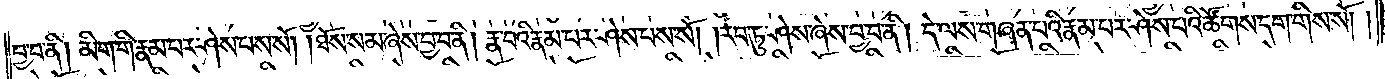བྱ་བ་ནི། མིག་གི་རྣམ་པར་ཤེས་པས་སོ། །ཐོས་སམ་ཞེས་བྱ་བ་ནི། རྣ་བའི་རྣམ་པར་ཤེས་པས་སོ། །རབ་ཏུ་ཤེས་ཞེས་བྱ་བ་ནི། དེ་ལས་གཞན་པའི་རྣམ་པར་ཤེས་པའི་ཚོགས་དག་གིས་སོ། །
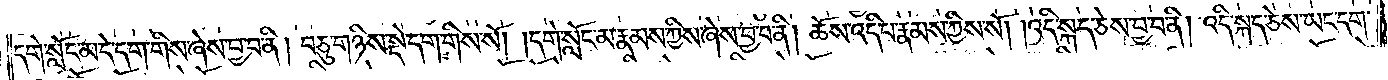དགེ་སློང་མ་དེ་དག་གིས་ཞེས་བྱ་བ་ནི། བཅུ་གཉིས་སྡེ་དག་གིས་སོ། །དགེ་སློང་མ་རྣམས་ཀྱིས་ཞེས་བྱ་བ་ནི། ཆོས་འདི་པ་རྣམས་ཀྱིས་སོ། །འདི་སྐད་ཅེས་བྱ་བ་ནི། འདི་སྐད་ཅེས་ཡང་དག་
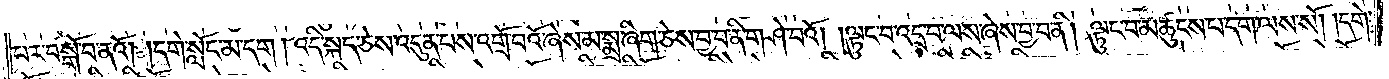པར་བསྒོ་བ་ནའོ། །དགེ་སློང་མ་དག །འདི་སྐད་ཅེས་འདུན་པས་འགྲོ་བའོ་ཞེས་མ་སྨྲ་ཞིག་ཅེས་བྱ་བ་ནི་གཤེ་བའོ། །ལྟུང་བ་འདྲ་བ་ལས་ཞེས་བྱ་བ་ནི། ལྟུང་བ་མཚུངས་པ་དག་ལས་སོ། །དགེ་
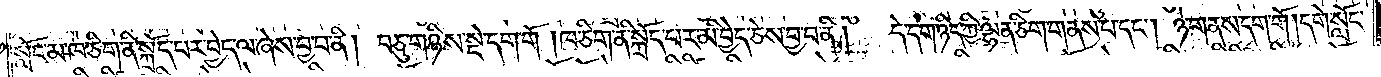སློང་མ་ཁ་ཅིག་ནི་སྐྲོད་པར་བྱེད་ལ་ཞེས་བྱ་བ་ནི། བཅུ་གཉིས་སྡེ་དག་གོ །ཁ་ཅིག་ནི་སྐྲོད་པར་མི་བྱེད་ཅེས་བྱ་བ་ནི། དེ་དག་ཉིད་ཀྱི་ལྷན་ཅིག་གནས་པ་དང༌། ཉེ་གནས་དག་གོ །དགེ་སློང་
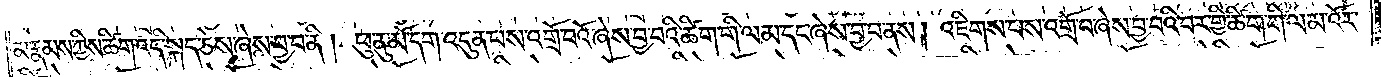མ་རྣམས་ཀྱིས་ཚིག་འདི་སྐད་ཅེས་ཞེས་བྱ་བ་ནི། ཕུ་ནུ་མོ་དགེ་འདུན་པས་འགྲོ་བའོ་ཞེས་བྱ་བའི་ཚིག་གི་ལམ་དང་ཞེས་བྱ་བ་ནས། འཇིགས་པས་འགྲོ་བ་ཞེས་བྱ་བའི་བར་གྱི་ཚིག་གི་ལམ་འོར་
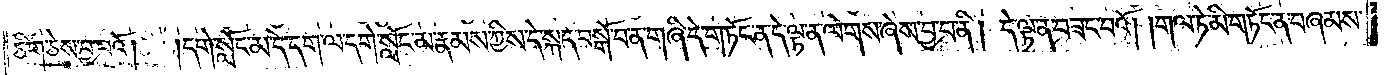ཅིག་ཅེས་བྱ་བའོ། །དགེ་སློང་མ་དེ་དག་ལ་དགེ་སློང་མ་རྣམས་ཀྱིས་དེ་སྐད་བསྒོ་བ་ན་གཞི་དེ་གཏོང་ན་དེ་ལྟ་ན་ལེགས་ཞེས་བྱ་བ་ནི། དེ་ལྟ་ན་བཟང་བའོ། །གལ་ཏེ་མི་གཏོང་ན་བཞམས་
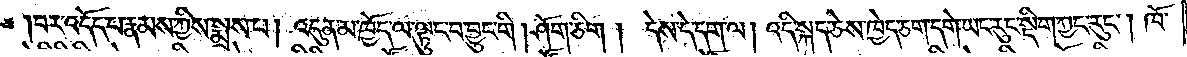།བར་འདོད་པ་རྣམས་ཀྱིས་སྨྲས་པ། འདུན་མ་ཁྱོད་ལ་ལྟུང་བ་བྱུང་གི །ཤོག་ཅིག །དེས་དེ་དག་ལ། འདི་སྐད་ཅེས་ཁྱེད་ཅག་དགེ་ཡང་རུང་སྡིག་ཀྱང་རུང༌། ཁོ་
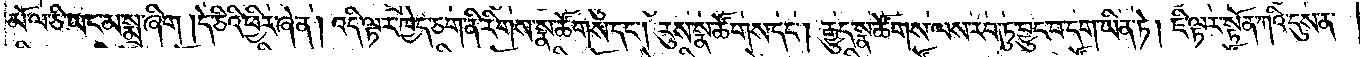མོ་ལ་ཅི་ཡང་མ་སྨྲ་ཞིག །དེ་ཅིའི་ཕྱིར་ཞེ་ན། འདི་ལྟར་ཁྱེད་ཅག་ནི་རིགས་སྣ་ཚོགས་དང༌། རུས་སྣ་ཚོགས་དང༌། རྒྱུད་སྣ་ཚོགས་ལས་རབ་ཏུ་བྱུང་བ་དག་ཡིན་ཏེ། ཇི་ལྟར་སྟོན་ཀའི་དུས་ན་
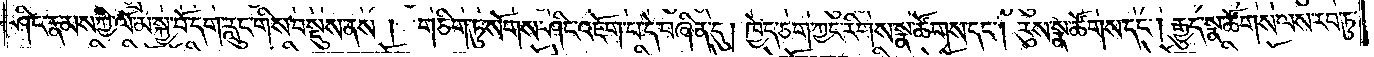ཤིང་རྣམས་ཀྱི་ལོ་མ་སྐྱ་བོ་དག་རླུང་གིས་བསྡུས་ནས ། གཅིག་ཏུ་སོགས་ཤིང་འཇོག་པ་དེ་བཞིན་དུ། ཁྱེད་ཅག་ཀྱང་རིགས་སྣ་ཚོགས་དང༌། རུས་སྣ་ཚོགས་དང༌། རྒྱུད་སྣ་ཚོགས་ལས་རབ་ཏུ་
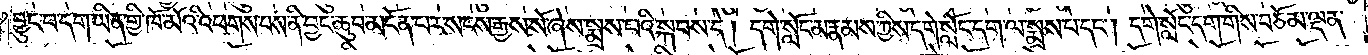བྱུང་བ་དག་ཡིན་གྱི་ཁོ་མོའི་འཕགས་པས་ནི་བྱང་ཆུབ་མངོན་པར་སངས་རྒྱས་སོ་ཞེས་སྨྲས་པའི་སྐབས་དེ། དགེ་སློང་མ་རྣམས་ཀྱིས་དགེ་སློང་དག་ལ་སྨྲས་པ་དང༌། དགེ་སློང་དག་གིས་བཅོམ་ལྡན་
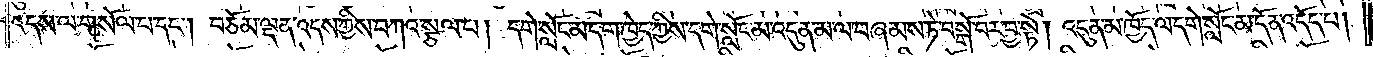འདས་ལ་གསོལ་པ་དང༌། བཅོམ་ལྡན་འདས་ཀྱིས་བཀའ་སྩལ་པ། དགེ་སློང་མ་དག་ཁྱེད་ཀྱིས་དགེ་སློང་མ་འདུན་མ་ལ་བཞམས་ཏེ་བསྒོ་བར་བྱ་སྟེ། འདུན་མ་ཁྱོད་ལ་དགེ་སློང་མ་དོན་འདོད་པ།
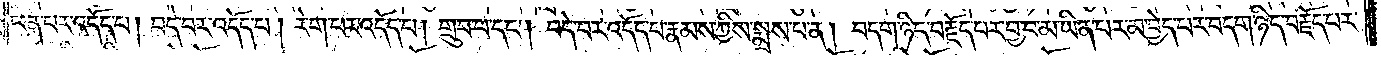ཕན་པར་འདོད་པ། བདེ་བར་འདོད་པ། རེག་པར་འདོད་པ། གྲུབ་པ་དང༌། བདེ་བར་འདོད་པ་རྣམས་ཀྱིས་སྨྲས་པ་ན། བདག་ཉིད་བརྗོད་པར་བྱ་བ་མ་ཡིན་པར་མ་བྱེད་པར་བདག་ཉིད་བརྗོད་པར་
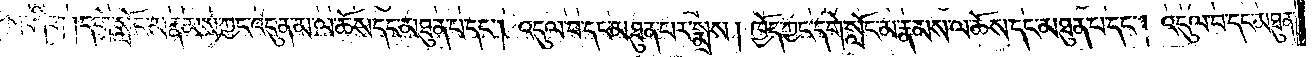བྱ་བར་གྱིས་ཤིག །དགེ་སློང་མ་རྣམས་ཀྱང་འདུན་མ་ལ་ཆོས་དང་མཐུན་པ་དང༌། འདུལ་བ་དང་མཐུན་པར་སྨྲས། ཁྱོད་ཀྱང་དགེ་སློང་མ་རྣམས་ལ་ཆོས་དང་མཐུན་པ་དང༌། འདུལ་བ་དང་མཐུན་
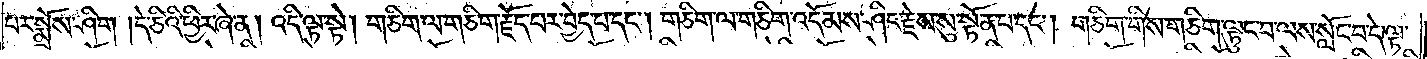པར་སྨྲོས་ཤིག །དེ་ཅིའི་ཕྱིར་ཞེ་ན། འདི་ལྟ་སྟེ། གཅིག་ལ་གཅིག་རྗོད་པར་བྱེད་པ་དང༌། གཅིག་ལ་གཅིག་འདོམས་ཤིང་རྗེས་སུ་སྟོན་པ་དང༌། གཅིག་གིས་གཅིག་ལྟུང་བ་ལས་སློང་བ་དེ་ལྟ་
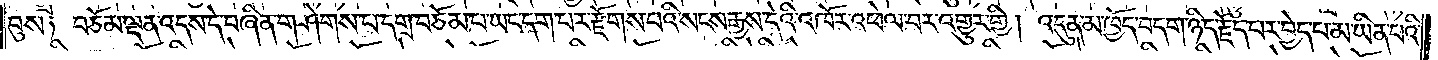བུས༑ བཅོམ་ལྡན་འདས་དེ་བཞིན་གཤེགས་པ་དགྲ་བཅོམ་པ་ཡང་དག་པར་རྫོགས་པའི་སངས་རྒྱས་དེའི་འཁོར་འཕེལ་བར་འགྱུར་གྱི། འདུན་མ་ཁྱོད་བདག་ཉིད་རྗོད་པར་བྱེད་པ་མ་ཡིན་པའི་
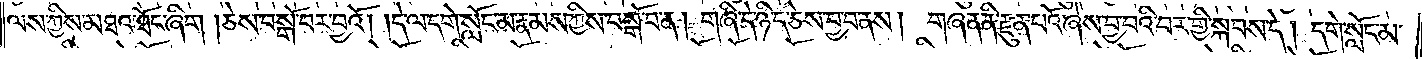ལས་ཀྱིས་མཐའ་ཐོང་ཞིག །ཅེས་བསྒོ་བར་བྱའོ། །དེ་ལ་དགེ་སློང་མ་རྣམས་ཀྱིས་བསྒོ་བ་ན། གཞི་དེ་ཉིད་ཅེས་བྱ་བ་ནས། གཞན་ནི་རྫུན་པའོ་ཞེས་བྱ་བའི་བར་གྱི་སྐབས་དེ། དགེ་སློང་མ་
